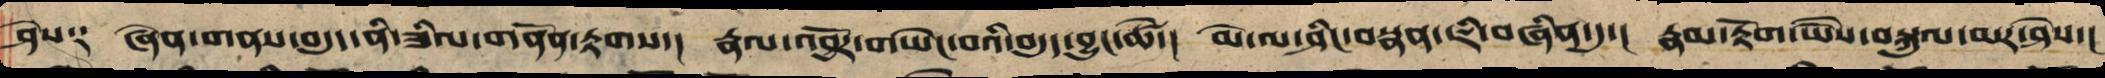ཤེས༑ ཞེན་གནས་བདུད་ནི་ཟིལ་ནོན་རྟགས་། རྣལ་འབྱོར་གཡེང་བའི་བདུད་བྱུང་ཚེ་། མེ་ལ་ཤིང་བསྣན་ཇི་བཞིན་དུ་། རྣམ་རྟོག་ཡཻས་བསྐུལ་མར་ཤེས་།
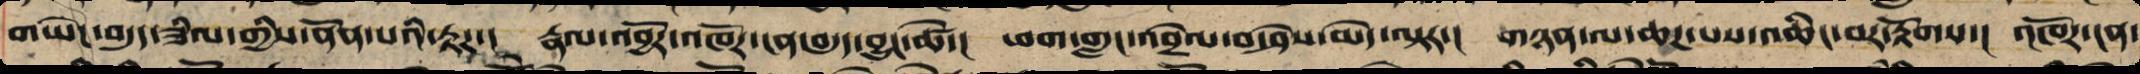གཡེང་བདུད་ཟིལ་གྱིས་ནོན་པའི་རྟགས་། རྣལ་འབྱོར་འཁོར་ངན་བདུད་བྱུང་ཚེ་། ཕག་གླང་འབྲེལ་བ་མེད་ཤེས་ལྟར་། གཉེན་ལ་ཆཌ་པས་འཆིང་བར་རྟོགས་། འཁོར་ངན་
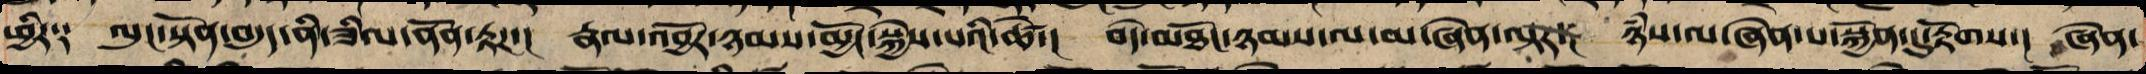ཕྱིར༑ ལུང་སྟོན་བདུད་ནི་ཟིལ་ནོན་རྟཌ་། རྣལ་འབྱོར་ཉམས་མྱོང་སྐྱེས་པའི་ཚེ་། བདེ་མཐོང་ཉམས་ལ་མ་ཞེན་ལྟར་། ཉཾས་ལ་ཞེན་པ་སྐྱོན་དུ་རྟོགས་། ཞེན་
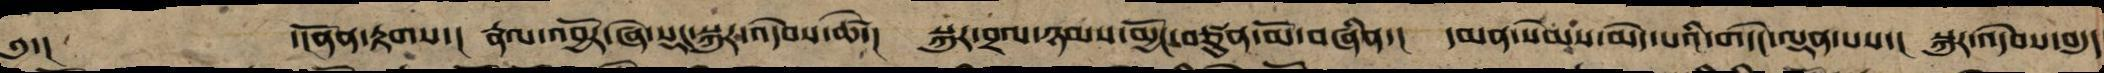༅་།         ་།ནོན་རྟགས་། རྣལ་འབྱོར་ཞེ་སྡང་བསྐུར་འདེབས་ཚེ་། སྐུར་བྲལ་ཉམས་མྱོང་བཙུན་མོ་བཞིན་། དམན་སེམས་མེད་པའི་གདེང་ལྡན་པས་། སྐུར་འདེབས་བདུད
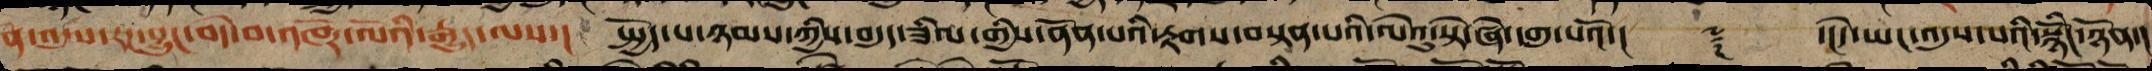དོན་འདུས་རང་བྱུང་བདེ་བའི་འཁོར་ལོའི་རྒྱུད་ལས་།  སྤྱོད་པ་ཉམས་ཀྱིས་བདུད་ཟིལ་གྱིས་ནོན་པའི་རྟགས་བསྟན་པའི་ལེའུ་སྟེ་ཞེ་དགུ་པའོ་།།    ༈    ་།དེ་ཡང་འདུས་པའི་སྙིོང་ཉོན་།
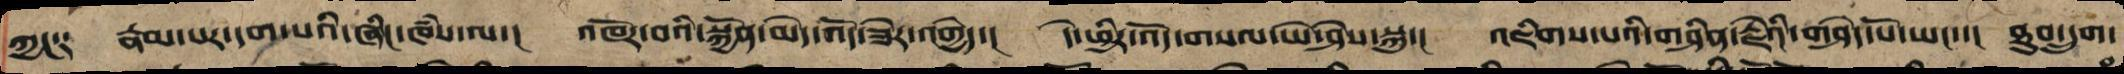ཀྱང༑ རྣམ་པར་དག་པའི་ཞིང་ཁཾས་ལ་། འཁོར་བའི་སྐྱོན་མེད་འོད་ཟེར་འགྱེད་། དེ་ཕྱིར་འོད་གསལ་ཡེ་ཤེས་སྐུ་། འཇིགས་པའི་གཤིན་རྗེའི་གཤེད་པོ་ཡང་་། ཐུབ་དྲུག་
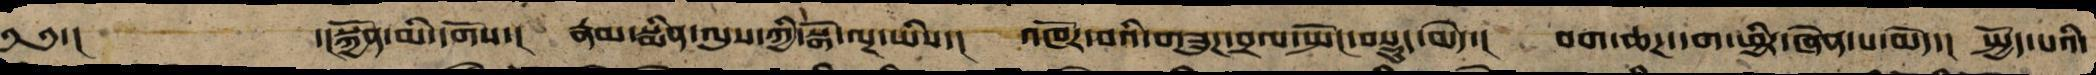༄༅་། ་།སྐྱོན་མི་གོས་། རྣམ་སྨིན་ལུས་ཀྱི་སྒོ་ལྔ་ཡིས་། འཁོར་བའི་གཟུཌ་བྲལ་སྤོང་སྡུད་མེད་། བག་ཆཌ་དག་ཕྱིར་ཞེན་པ་མེད་། སྤྱོད་པའི་
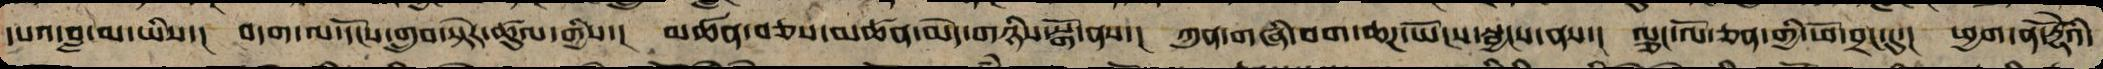དཔའ་བླ་མ་ཡིས་། བདག་ལ་དངོས་གྲུབ་སྟེར་ཚུལ་གྱིས་། མཚན་བཅས་མཚན་མེད་གཉིས་སྒོ་ནས་། ཀུན་གཞི་བག་ཆཌ་ཡོངས་སྦྱངས་ནས་། ལྕང་ལོ་ཅན་གྱི་ཕོ་བྲང་དུ་། ཕྱག་ན་རྡོེའི་
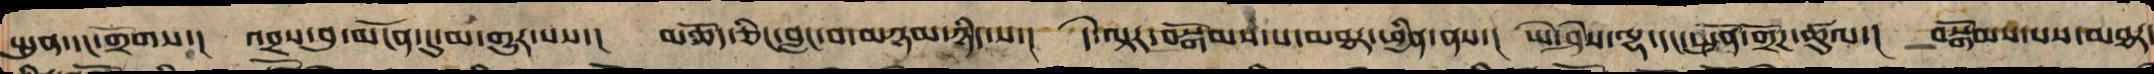སྤུན་དང་གྲོགས་།  འབྲས་བུ་མངོན་དུ་མ་གྱུར་པས་།  མཆོད་ཅིང་བླང་བ་མཉམ་ཉིད་པ་།  དེ་ལྟར་བསྒོམས་པ་མཐར་ཕྱིན་ནས་།  ཡེ་ཤེས་ལྷ་དང་སྤུན་གྲོཌ་ཚུལ་། བསྒོམ་པས་མཐར
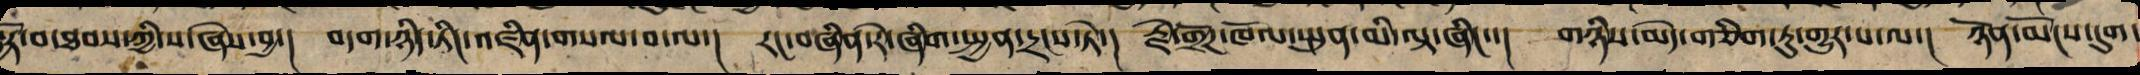སྦྱོར་བ་ཐབས་ཀྱི་ས་ཞེས་བྱ་། བདག་ཉིད་ཏིང་འཛིན་གསལ་བ་ལ་། རང་བཞིན་རེ་ཞིག་སྤྱན་དྲངས་ཏེ་།  རྗེ་གྲོཌ་ཁོལ་སྤུན་མི་ལྟ་ཞིང་་།  གཉིས་མེད་གཅིག་ཏུ་གྱུར་པ་ལ་།  ཉོན་མོངས་དུག་
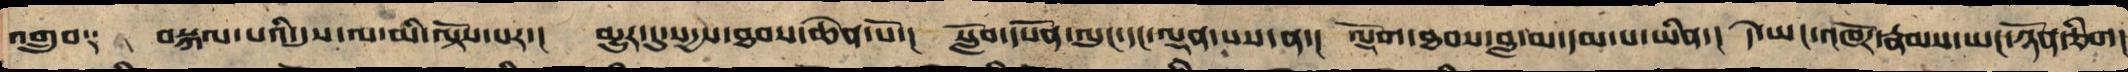འགྲུབ༑ བསྐལ་པའི་དུས་ལ་མི་ལྟོས་པར་། མྱུར་དུ་སདྱས་ཐབས་ཆེན་པོ་། སློབ་དཔོན་ལུང་དང་ལྡན་པས་ན་། ལྡོག་ཐབས་བླ་མ་དམ་པ་ཡིན་། དེ་ཡང་འཁོར་རྣམས་ཡང་ཉོན་ཅིག།
